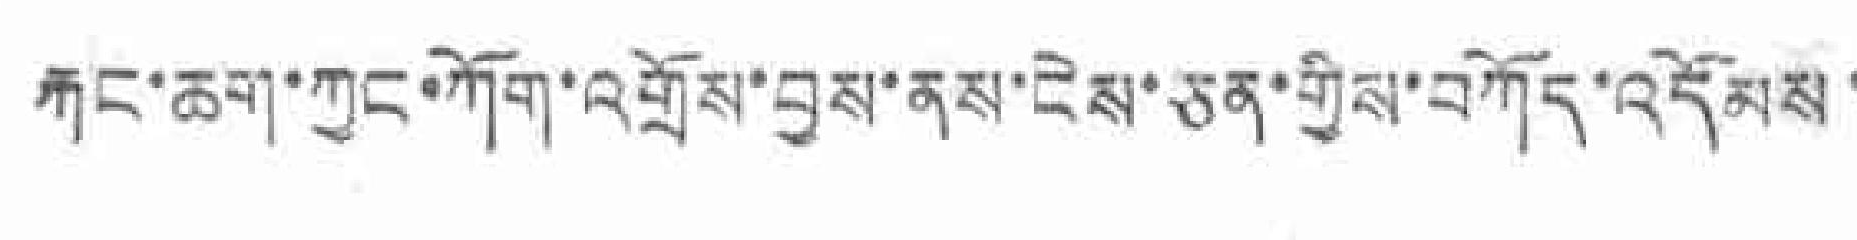རྐང་ཆག་ཀྱང་ཀོག་འགྲོས་བྱས་ནས་ངེས་ཅན་གྱིས་བཀོད་འདོམས་
